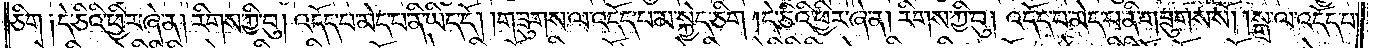ཅིག །དེ་ཅིའི་ཕྱིར་ཞེ་ན། རིགས་ཀྱི་བུ། འདོད་པ་མེད་པ་ནི་ཡིད་དོ། །གཟུགས་ལ་འདོད་པ་མ་སྐྱེད་ཅིག །དེ་ཅིའི་ཕྱིར་ཞེ་ན། རིགས་ཀྱི་བུ། འདོད་པ་མེད་པ་ནི་གཟུགས་སོ། །སྒྲ་ལ་འདོད་པ་
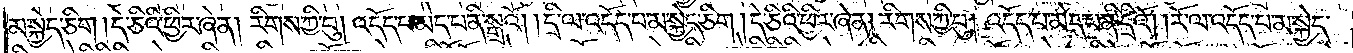མ་སྐྱེད་ཅིག །དེ་ཅིའི་ཕྱིར་ཞེ་ན། རིགས་ཀྱི་བུ། འདོད་པ་མེད་པ་ནི་སྒྲའོ། །དྲི་ལ་འདོད་པ་མ་སྐྱེད་ཅིག །དེ་ཅིའི་ཕྱིར་ཞེ་ན། རིགས་ཀྱི་བུ། འདོད་པ་མེད་པ་ནི་དྲིའོ། །རོ་ལ་འདོད་པ་མ་སྐྱེད་
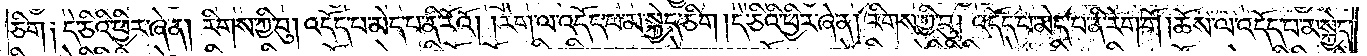ཅིག །དེ་ཅིའི་ཕྱིར་ཞེ་ན། རིགས་ཀྱི་བུ། འདོད་པ་མེད་པ་ནི་རོའོ། །རེག་ལ་འདོད་པ་མ་སྐྱེད་ཅིག །དེ་ཅིའི་ཕྱིར་ཞེ་ན། རིགས་ཀྱི་བུ། འདོད་པ་མེད་པ་ནི་རེག་གོ །ཆོས་ལ་འདོད་པ་མ་སྐྱེད་
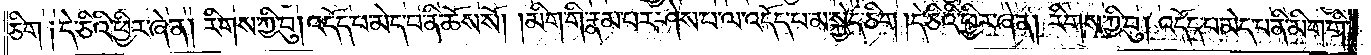ཅིག །དེ་ཅིའི་ཕྱིར་ཞེ་ན། རིགས་ཀྱི་བུ། འདོད་པ་མེད་པ་ནི་ཆོས་སོ། །མིག་གི་རྣམ་པར་ཤེས་པ་ལ་འདོད་པ་མ་སྐྱེད་ཅིག །དེ་ཅིའི་ཕྱིར་ཞེ་ན། རིགས་ཀྱི་བུ། འདོད་པ་མེད་པ་ནི་མིག་གི་
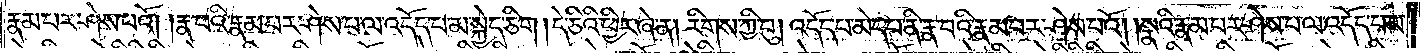རྣམ་པར་ཤེས་པའོ། །རྣ་བའི་རྣམ་པར་ཤེས་པ་ལ་འདོད་པ་མ་སྐྱེད་ཅིག །དེ་ཅིའི་ཕྱིར་ཞེ་ན། རིགས་ཀྱི་བུ། འདོད་པ་མེད་པ་ནི་རྣ་བའི་རྣམ་པར་ཤེས་པའོ། །སྣའི་རྣམ་པར་ཤེས་པ་ལ་འདོད་པ་མ་
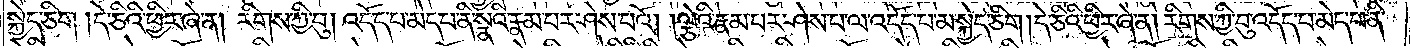སྐྱེད་ཅིག །དེ་ཅིའི་ཕྱིར་ཞེ་ན། རིགས་ཀྱི་བུ། འདོད་པ་མེད་པ་ནི་སྣའི་རྣམ་པར་ཤེས་པའོ། །ལྕེའི་རྣམ་པར་ཤེས་པ་ལ་འདོད་པ་མ་སྐྱེད་ཅིག །དེ་ཅིའི་ཕྱིར་ཞེ་ན། རིགས་ཀྱི་བུ། འདོད་པ་མེད་པ་ནི་
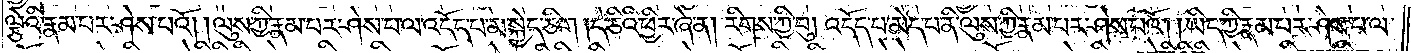ལྕེའི་རྣམ་པར་ཤེས་པའོ། །ལུས་ཀྱི་རྣམ་པར་ཤེས་པ་ལ་འདོད་པ་མ་སྐྱེད་ཅིག །དེ་ཅིའི་ཕྱིར་ཞེ་ན། རིགས་ཀྱི་བུ། འདོད་པ་མེད་པ་ནི་ལུས་ཀྱི་རྣམ་པར་ཤེས་པའོ། །ཡིད་ཀྱི་རྣམ་པར་ཤེས་པ་ལ་
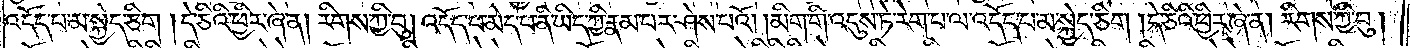འདོད་པ་མ་སྐྱེད་ཅིག །དེ་ཅིའི་ཕྱིར་ཞེ་ན། རིགས་ཀྱི་བུ། འདོད་པ་མེད་པ་ནི་ཡིད་ཀྱི་རྣམ་པར་ཤེས་པའོ། །མིག་གི་འདུས་ཏེ་རེག་པ་ལ་འདོད་པ་མ་སྐྱེད་ཅིག །དེ་ཅིའི་ཕྱིར་ཞེ་ན། རིགས་ཀྱི་བུ།
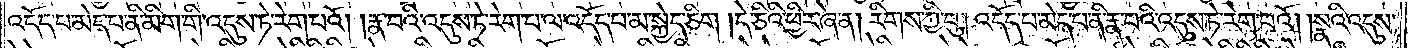འདོད་པ་མེད་པ་ནི་མིག་གི་འདུས་ཏེ་རེག་པའོ། །རྣ་བའི་འདུས་ཏེ་རེག་པ་ལ་འདོད་པ་མ་སྐྱེད་ཅིག །དེ་ཅིའི་ཕྱིར་ཞེ་ན། རིགས་ཀྱི་བུ། འདོད་པ་མེད་པ་ནི་རྣ་བའི་འདུས་ཏེ་རེག་པའོ། །སྣའི་འདུས་
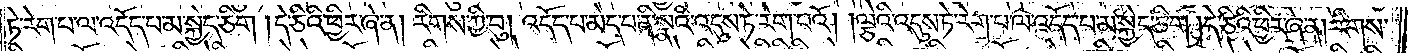ཏེ་རེག་པ་ལ་འདོད་པ་མ་སྐྱེད་ཅིག །དེ་ཅིའི་ཕྱིར་ཞེ་ན། རིགས་ཀྱི་བུ། འདོད་པ་མེད་པ་ནི་སྣའི་འདུས་ཏེ་རེག་པའོ། །ལྕེའི་འདུས་ཏེ་རེག་པ་ལ་འདོད་པ་མ་སྐྱེད་ཅིག །དེ་ཅིའི་ཕྱིར་ཞེ་ན། རིགས་
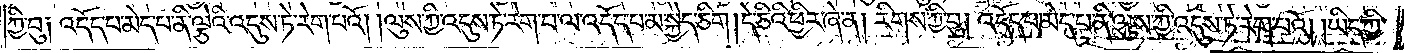ཀྱི་བུ། འདོད་པ་མེད་པ་ནི་ལྕེའི་འདུས་ཏེ་རེག་པའོ། །ལུས་ཀྱི་འདུས་ཏེ་རེག་པ་ལ་འདོད་པ་མ་སྐྱེད་ཅིག །དེ་ཅིའི་ཕྱིར་ཞེ་ན། རིགས་ཀྱི་བུ། འདོད་པ་མེད་པ་ནི་ལུས་ཀྱི་འདུས་ཏེ་རེག་པའོ། །ཡིད་ཀྱི་
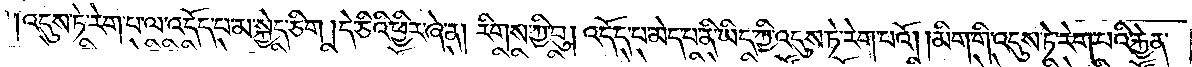འདུས་ཏེ་རེག་པ་ལ་འདོད་པ་མ་སྐྱེད་ཅིག །དེ་ཅིའི་ཕྱིར་ཞེ་ན། རིགས་ཀྱི་བུ། འདོད་པ་མེད་པ་ནི་ཡིད་ཀྱི་འདུས་ཏེ་རེག་པའོ། །མིག་གི་འདུས་ཏེ་རེག་པའི་རྐྱེན་
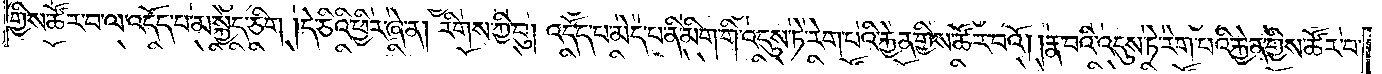གྱིས་ཚོར་བ་ལ་འདོད་པ་མ་སྐྱེད་ཅིག །དེ་ཅིའི་ཕྱིར་ཞེ་ན། རིགས་ཀྱི་བུ། འདོད་པ་མེད་པ་ནི་མིག་གི་འདུས་ཏེ་རེག་པའི་རྐྱེན་གྱིས་ཚོར་བའོ། །རྣ་བའི་འདུས་ཏེ་རེག་པའི་རྐྱེན་གྱིས་ཚོར་བ་
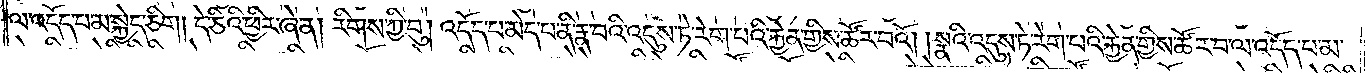ལ་འདོད་པ་མ་སྐྱེད་ཅིག །དེ་ཅིའི་ཕྱིར་ཞེ་ན། རིགས་ཀྱི་བུ། འདོད་པ་མེད་པ་ནི་རྣ་བའི་འདུས་ཏེ་རེག་པའི་རྐྱེན་གྱིས་ཚོར་བའོ། །སྣའི་འདུས་ཏེ་རེག་པའི་རྐྱེན་གྱིས་ཚོར་བ་ལ་འདོད་པ་མ་
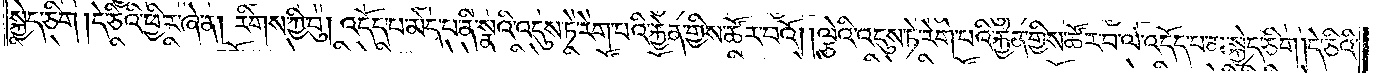སྐྱེད་ཅིག །དེ་ཅིའི་ཕྱིར་ཞེ་ན། རིགས་ཀྱི་བུ། འདོད་པ་མེད་པ་ནི་སྣའི་འདུས་ཏེ་རེག་པའི་རྐྱེན་གྱིས་ཚོར་བའོ། །ལྕེའི་འདུས་ཏེ་རེག་པའི་རྐྱེན་གྱིས་ཚོར་བ་ལ་འདོད་པ་མ་སྐྱེད་ཅིག །དེ་ཅིའི་
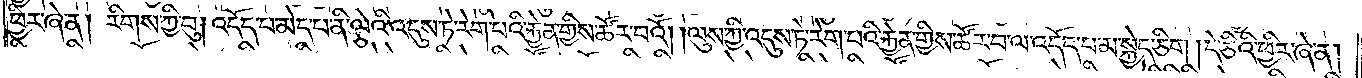ཕྱིར་ཞེ་ན། རིགས་ཀྱི་བུ། འདོད་པ་མེད་པ་ནི་ལྕེའི་འདུས་ཏེ་རེག་པའི་རྐྱེན་གྱིས་ཚོར་བའོ། །ལུས་ཀྱི་འདུས་ཏེ་རེག་པའི་རྐྱེན་གྱིས་ཚོར་བ་ལ་འདོད་པ་མ་སྐྱེད་ཅིག །དེ་ཅིའི་ཕྱིར་ཞེ་ན།
